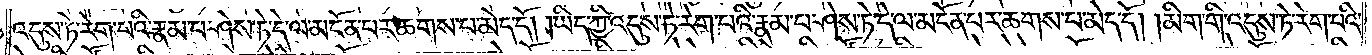འདུས་ཏེ་རེག་པའི་རྣམ་པ་ཤེས་ཏེ་དེ་ལ་མངོན་པར་ཆགས་པ་མེད་དོ། །ཡིད་ཀྱི་འདུས་ཏེ་རེག་པའི་རྣམ་པ་ཤེས་ཏེ་དེ་ལ་མངོན་པར་ཆགས་པ་མེད་དོ། །མིག་གི་འདུས་ཏེ་རེག་པའི་
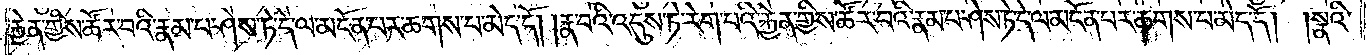རྐྱེན་གྱིས་ཚོར་བའི་རྣམ་པ་ཤེས་ཏེ་དེ་ལ་མངོན་པར་ཆགས་པ་མེད་དོ། །རྣ་བའི་འདུས་ཏེ་རེག་པའི་རྐྱེན་གྱིས་ཚོར་བའི་རྣམ་པ་ཤེས་ཏེ་དེ་ལ་མངོན་པར་ཆགས་པ་མེད་དོ། །སྣའི་
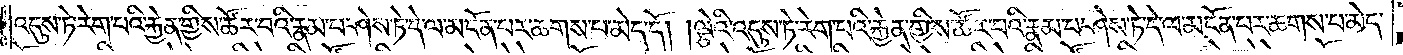འདུས་ཏེ་རེག་པའི་རྐྱེན་གྱིས་ཚོར་བའི་རྣམ་པ་ཤེས་ཏེ་དེ་ལ་མངོན་པར་ཆགས་པ་མེད་དོ། །ལྕེའི་འདུས་ཏེ་རེག་པའི་རྐྱེན་གྱིས་ཚོར་བའི་རྣམ་པ་ཤེས་ཏེ་དེ་ལ་མངོན་པར་ཆགས་པ་མེད་
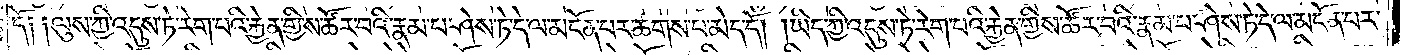དོ༑ ༑ལུས་ཀྱི་འདུས་ཏེ་རེག་པའི་རྐྱེན་གྱིས་ཚོར་བའི་རྣམ་པ་ཤེས་ཏེ་དེ་ལ་མངོན་པར་ཆགས་པ་མེད་དོ། །ཡིད་ཀྱི་འདུས་ཏེ་རེག་པའི་རྐྱེན་གྱིས་ཚོར་བའི་རྣམ་པ་ཤེས་ཏེ་དེ་ལ་མངོན་པར་
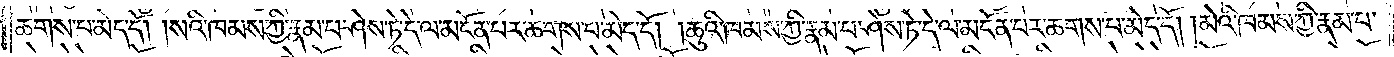ཆགས་པ་མེད་དོ། །སའི་ཁམས་ཀྱི་རྣམ་པ་ཤེས་ཏེ་དེ་ལ་མངོན་པར་ཆགས་པ་མེད་དོ། །ཆུའི་ཁམས་ཀྱི་རྣམ་པ་ཤེས་ཏེ་དེ་ལ་མངོན་པར་ཆགས་པ་མེད་དོ། །མེའི་ཁམས་ཀྱི་རྣམ་པ་
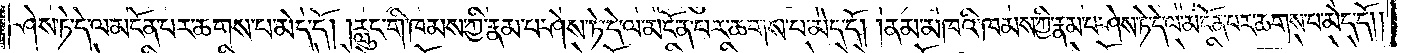ཤེས་ཏེ་དེ་ལ་མངོན་པར་ཆགས་པ་མེད་དོ། །རླུང་གི་ཁམས་ཀྱི་རྣམ་པ་ཤེས་ཏེ་དེ་ལ་མངོན་པར་ཆགས་པ་མེད་དོ། །ནམ་མཁའི་ཁམས་ཀྱི་རྣམ་པ་ཤེས་ཏེ་དེ་ལ་མངོན་པར་ཆགས་པ་མེད་དོ། །
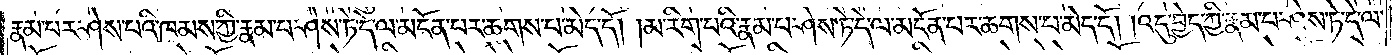རྣམ་པར་ཤེས་པའི་ཁམས་ཀྱི་རྣམ་པ་ཤེས་ཏེ་དེ་ལ་མངོན་པར་ཆགས་པ་མེད་དོ། །མ་རིག་པའི་རྣམ་པ་ཤེས་ཏེ་དེ་ལ་མངོན་པར་ཆགས་པ་མེད་དོ། །འདུ་བྱེད་ཀྱི་རྣམ་པ་ཤེས་ཏེ་དེ་ལ་
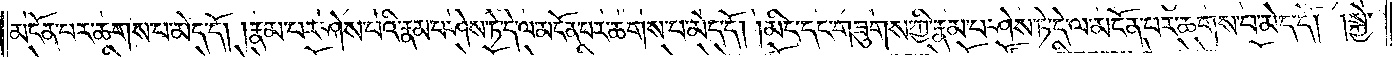མངོན་པར་ཆགས་པ་མེད་དོ། །རྣམ་པར་ཤེས་པའི་རྣམ་པ་ཤེས་ཏེ་དེ་ལ་མངོན་པར་ཆགས་པ་མེད་དོ། །མིང་དང་གཟུགས་ཀྱི་རྣམ་པ་ཤེས་ཏེ་དེ་ལ་མངོན་པར་ཆགས་པ་མེད་དོ། །སྐྱེ་
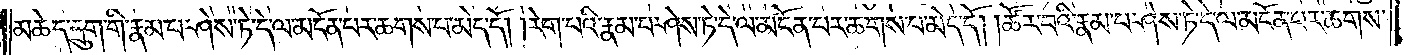མཆེད་དྲུག་གི་རྣམ་པ་ཤེས་ཏེ་དེ་ལ་མངོན་པར་ཆགས་པ་མེད་དོ། །རེག་པའི་རྣམ་པ་ཤེས་ཏེ་དེ་ལ་མངོན་པར་ཆགས་པ་མེད་དོ། །ཚོར་བའི་རྣམ་པ་ཤེས་ཏེ་དེ་ལ་མངོན་པར་ཆགས་
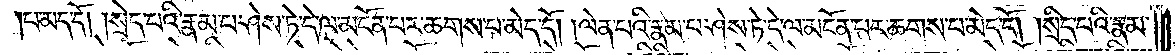པ་མེད་དོ། །སྲིད་པའི་རྣམ་པ་ཤེས་ཏེ་དེ་ལ་མངོན་པར་ཆགས་པ་མེད་དོ། །ལེན་པའི་རྣམ་པ་ཤེས་ཏེ་དེ་ལ་མངོན་པར་ཆགས་པ་མེད་དོ། །སྲིད་པའི་རྣམ་
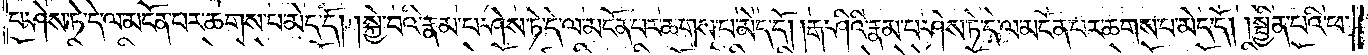པ་ཤེས་ཏེ་དེ་ལ་མངོན་པར་ཆགས་པ་མེད་དོ། །སྐྱེ་བའི་རྣམ་པ་ཤེས་ཏེ་དེ་ལ་མངོན་པར་ཆགས་པ་མེད་དོ། །རྒ་ཤིའི་རྣམ་པ་ཤེས་ཏེ་དེ་ལ་མངོན་པར་ཆགས་པ་མེད་དོ། །སྦྱིན་པའི་ཕ་
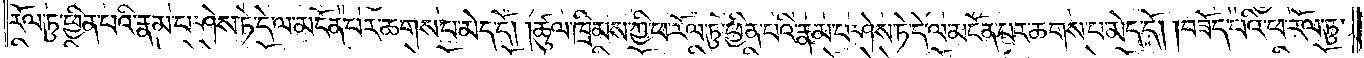རོལ་ཏུ་ཕྱིན་པའི་རྣམ་པ་ཤེས་ཏེ་དེ་ལ་མངོན་པར་ཆགས་པ་མེད་དོ། །ཚུལ་ཁྲིམས་ཀྱི་ཕ་རོལ་ཏུ་ཕྱིན་པའི་རྣམ་པ་ཤེས་ཏེ་དེ་ལ་མངོན་པར་ཆགས་པ་མེད་དོ། །བཟོད་པའི་ཕ་རོལ་ཏུ་
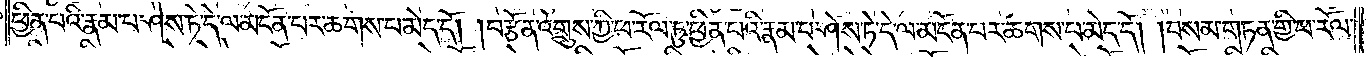ཕྱིན་པའི་རྣམ་པ་ཤེས་ཏེ་དེ་ལ་མངོན་པར་ཆགས་པ་མེད་དོ། །བརྩོན་འགྲུས་ཀྱི་ཕ་རོལ་ཏུ་ཕྱིན་པའི་རྣམ་པ་ཤེས་ཏེ་དེ་ལ་མངོན་པར་ཆགས་པ་མེད་དོ། །བསམ་གཏན་གྱི་ཕ་རོལ་
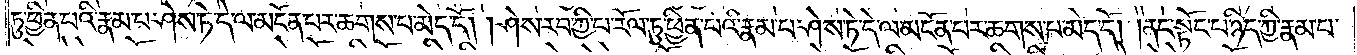ཏུ་ཕྱིན་པའི་རྣམ་པ་ཤེས་ཏེ་དེ་ལ་མངོན་པར་ཆགས་པ་མེད་དོ། །ཤེས་རབ་ཀྱི་ཕ་རོལ་ཏུ་ཕྱིན་པའི་རྣམ་པ་ཤེས་ཏེ་དེ་ལ་མངོན་པར་ཆགས་པ་མེད་དོ། །ནང་སྟོང་པ་ཉིད་ཀྱི་རྣམ་པ་
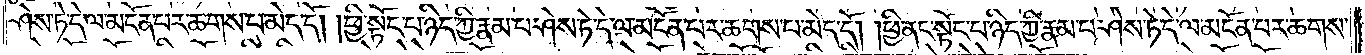ཤེས་ཏེ་དེ་ལ་མངོན་པར་ཆགས་པ་མེད་དོ། །ཕྱི་སྟོང་པ་ཉིད་ཀྱི་རྣམ་པ་ཤེས་ཏེ་དེ་ལ་མངོན་པར་ཆགས་པ་མེད་དོ། །ཕྱི་ནང་སྟོང་པ་ཉིད་ཀྱི་རྣམ་པ་ཤེས་ཏེ་དེ་ལ་མངོན་པར་ཆགས་
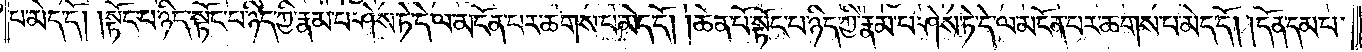པ་མེད་དོ། །སྟོང་པ་ཉིད་སྟོང་པ་ཉིད་ཀྱི་རྣམ་པ་ཤེས་ཏེ་དེ་ལ་མངོན་པར་ཆགས་པ་མེད་དོ། །ཆེན་པོ་སྟོང་པ་ཉིད་ཀྱི་རྣམ་པ་ཤེས་ཏེ་དེ་ལ་མངོན་པར་ཆགས་པ་མེད་དོ། །དོན་དམ་པ་
